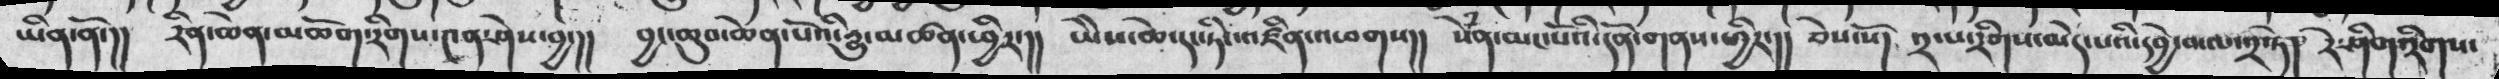ཡིན་ནོ་།།  རིན་ཆེན་མཆོག་རིགས་༤ན་ཤེས་བྱ་།།  བྱང་ཆུབ་ཆེན་པོའི་དྱུ་མཚན་ཕྱིར་།།  ཡཻས་ཆེ་དང་ཏིང་འཛིན་འཕགས།། སེཾན་མང་པོའི་དོན་གནས་ཕྱིར་།། ཅེས་སོ། ༢་པ་རིགས་མེད་པའི་དབྱེ་བ་ལ་༢་ཏེ། རེ་ཤིག་རིགས་
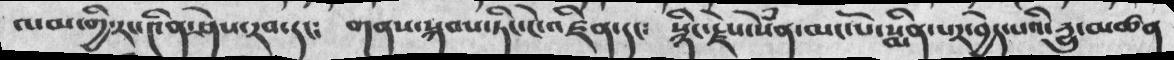ལམ་གྱི་རང་༤ིན་ཤེས་རབ་དང༴  གནས་སྐབས་ཏིང་ངེ་འཛིན་དང༴  སྙིང་རྗེས་སེཾན་མང་པོ་སྨིན་པར་བྱེད་པའི་དྱུ་མཚན
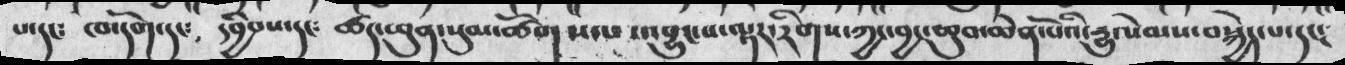པ་དང༴ ཁ་དོག་དང༴ དབྱིབས་དང༴ ཚད་ཕུན་སུམ་ཚོགས་པ་འབྱུང་པ་ལྟར་རིགས་ཀྱང་བྱང་ཆུབ་ཆེན་པོའི་དྱུ་སེམས་བསྐྱེད་པ་དང༴
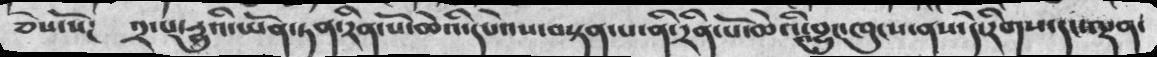ཅེས་སོ༴  ༢་པ་རྒྱུའི་ཡོན་ཏན་རིན་པོ་ཆེའི་དཔེའས་བསྟན་པ་ནི་རིན་པོ་ཆེའི་བྱུང་ཁུངས་ནས་དེ་རིགས་དང་ལྡན་
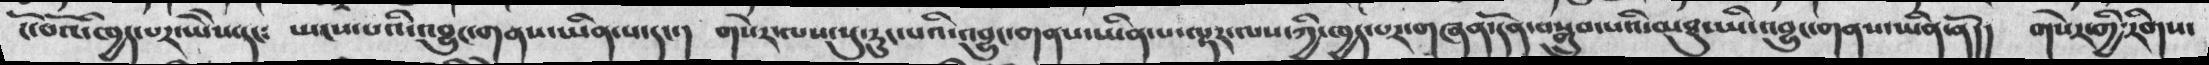ངོ་བོའི་ཁྱད་པར་ཡཻས་དང༴ ཡངས་པའི་འབྱུང་གནས་ཡིན་པ་དང་། གསེར་ལས་སུ་རུང་པའི་འབྱུང་གནས་ཡིན་པ་ལྟར་ལས་ཀྱི་ཁྱད་པར་གཞན་དོན་བསྒྲུབ་པའི་མཐུ་ཡི་འབྱུང་གནས་ཡིན་ནོ།། གསེར་གྱི་རིགས་
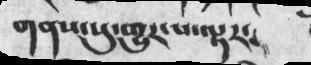གནས་སུ་གྱུར་པ་ལྟར༴
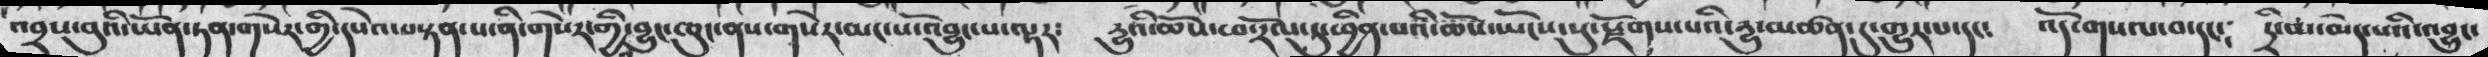འབྲས་བུའི་ཡོན་ཏན་གསེར་གྱི་དཔེའ་བསྟན་པ་ནི་གསེར་གྱི་བྱུང་ཁུང་ནས་གསེར་མང་པོ་འབྱུང་པ་ལྟར༴   དྱུའི་ཆོས་ཕ་རོལ་ཕྱིན་པའི་ཆོས་ཡོངས་སུ་སྫོགས་པའི་དྱུ་མཚན་དུ་གྱུར་པ་དང༴  འོད་གསལ་བ་དང༴ དྲི་མ་མེད་པའི་འབྱུང་
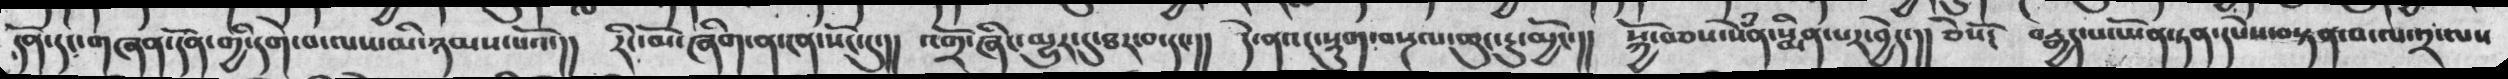དོན་དང་གཞན་དོན་གྱི་དགེ་བ་ལས་མི་ཉམས་པའོ་།།  རིང་མོ་ཞིག་ན་ངན་སོང་དུ་།། འགྲོ་ཞིང་མྱུར་དུ་ཐར་བ་དང་།། དེ་ནའང་སྡུག་བསྔལ་ཆུང་རུ་མྱོང་།། སྐྱོ་བཅས་སེཾན་སྨིན་པར་བྱེད་།། ཅེསོ༴ བརྒྱད་པ་ཡོན་ཏན་དཔེས་བསྟན་བ་ལ་༢་ལས
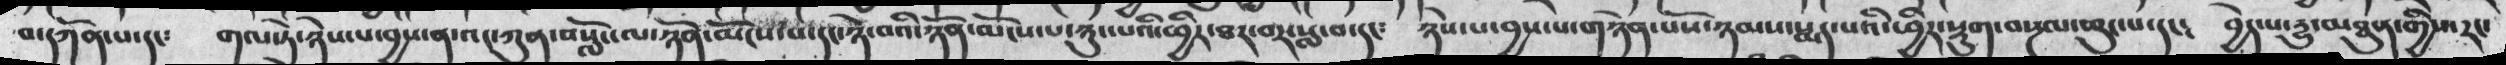བ་དཀོན་པ་དང༴  གལ་ཏེ་ཉེས་པ་བྱས་ན་འང་ཀུན་བསློང་ལ་ཉོན་མོངས་པ་དང་ཉེ་བའི་ཉོན་མོངས་པ་ཉུང་པའི་ཕྱིར་ཐར་བར་སླ་བ་དང༴ ཉེས་པ་བྱས་པ་གཉེན་པོས་ཉམས་སྨད་པའི་ཕྱིར་སྡུག་བསྔལ་ཆུང་པ་དང༴  བྱེད་པ་དྱུ་མཐུན་གྱིས་རང་
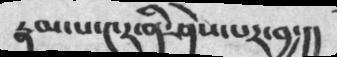རྣམ་པ་༩ར་ནི་ཤེས་པར་བྱ་།།
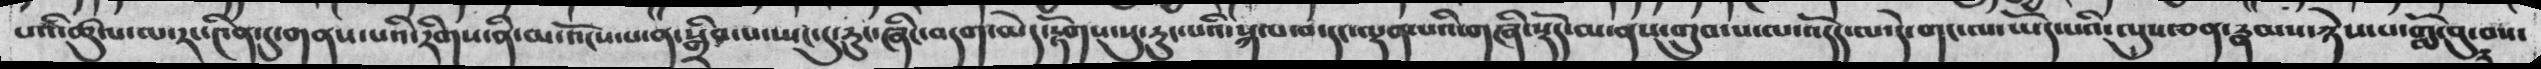པའི་ཚུལ་ལ་རང་༤ིན་དུ་གནས་པའི་རིགས་ནི་མ་འོངས་པ་ན་སྒྲིབ་པ་ཡང་དུ་རུང་ཞིང་བདག་མེད་རྟོགས་སུ་རུང་པའི་སྐལ་བ་དང་ལྡན་པའི་གཞི་སྡོད་མ་ནས་གྲུབ་པ་ལ་འོདད་ལ་དེ་གང་ལ་ཡོད་པའི་ལུས་ཅན་རྣམས་ཉེས་པ་གློ་བུ་བས་
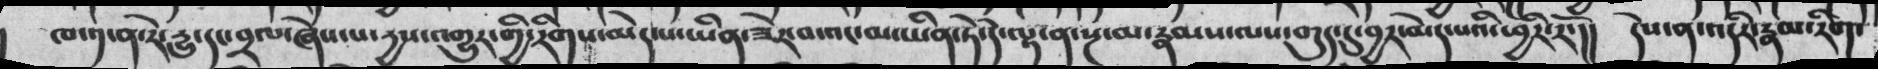ཁ་༡་ན་རེ་དྱུ་དང་བྲལ་ཞེས་པ་དྱས་འགྱུར་གྱི་རིགས་མེད་པ་ཡིན་ཟེར་བ་འང་མ་ཡིན་ཏེ་དེ་ལྟ་ན་སྔ་མ་རྣམས་ལས་གུད་དུ་བྱར་མེད་པའི་ཕྱིར་རོ་།། དེས་ན་འདིར་རྣམ་རིག་
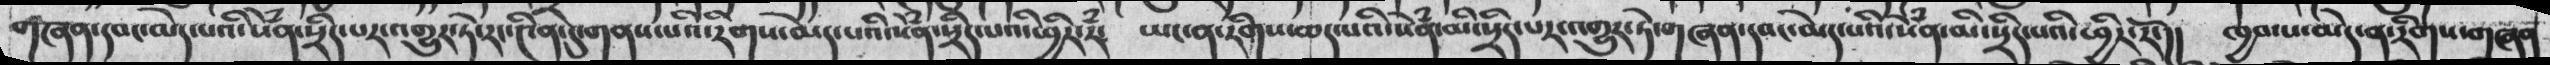གཞན་དབང་མེད་པའི་སེཾན་སྲིད་པར་གྱུར་ཏེ་རང་༤ིན་དུ་གནས་པའི་རིགས་མེད་པའི་སེཾན་སྲིད་པའི་ཕྱིར་རཾ་ ཡང་ན་རིགས་ཆད་པའི་སེཾན་མི་སྲིད་པར་འགྱུར་ཏེ་གཞན་དབང་མེད་པའི་སེཾན་མི་སྲིད་པའི་ཕྱིར་རོ་།། ཁྱབ་པ་མེད་ན་རིགས་གཞན
